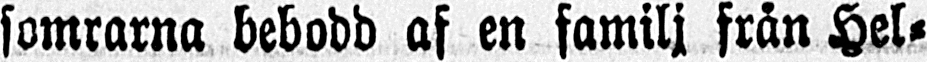somrarna bebodd af en familj från Hel-
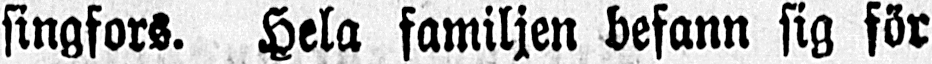singfors. Hela familjen befann sig för
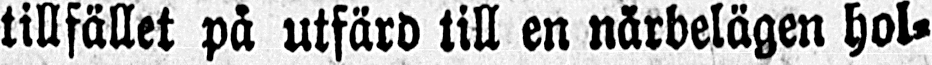tillfället på utfärd till en närbelägen hol-
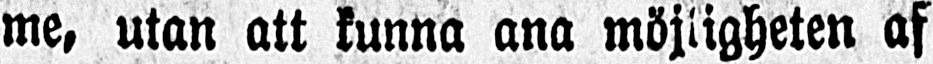me, utan att kunna ana möjligheten af
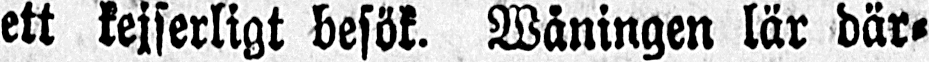ett kejserligt besök. Wåningen lär där-
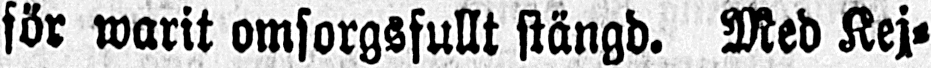för warit omsorgsfullt stängd. Med Kej-
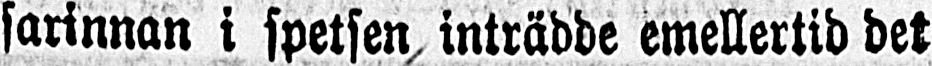sarinnan i spetsen inträdde emellertid det
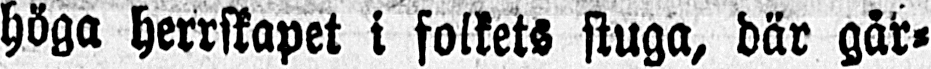höga herrskapet i folkets stuga, där går-
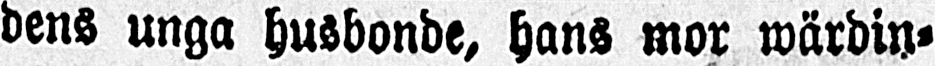dens unga husbonde, hans mor wärdin-
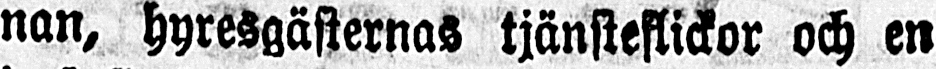nan, hyresgästernas tjänsteflickor och en
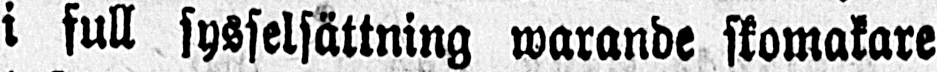i full sysselsättning warande skomakare
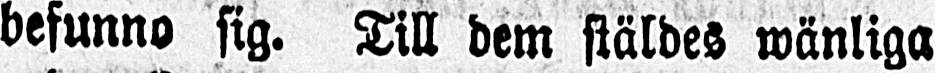befunno sig. Till dem stäldes wänliga
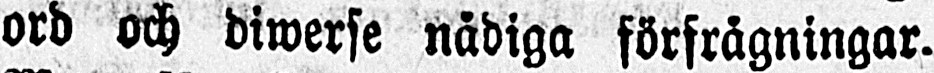ord och diwerse nådiga förfrågningar.
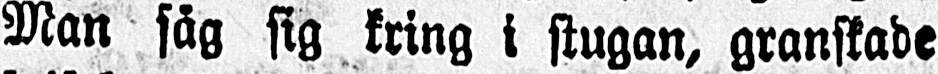Man såg sig kring i stugan, granskade
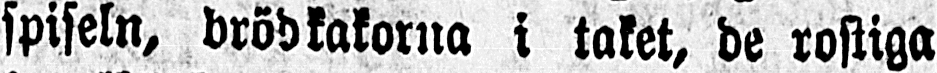spiseln, brödkakorna i taket, de rostiga
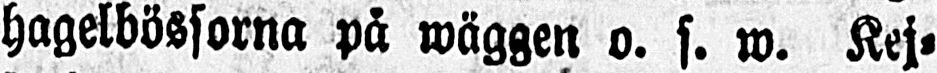hagelbössorna på wäggen o. s. w. Kej-
